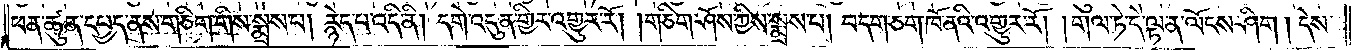ཕན་ཚུན་དཔྱད་ནས་གཅིག་གིས་སྨྲས་པ། རྙེད་པ་འདི་ནི། དགེ་འདུན་གྱིར་འགྱུར་རོ། །གཅིག་ཤོས་ཀྱིས་སྨྲས་པ། བདག་ཅག་ཁོ་ནའི་འགྱུར་རོ། །གལ་ཏེ་དེ་ལྟ་ན་ལོངས་ཤིག །དེས་
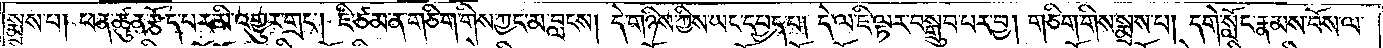སྨྲས་པ། ཕན་ཚུན་རྩོད་པར་མི་འགྱུར་གྲང༌། ཇི་ཙམ་ན་གཅིག་གིས་ཀྱང་མ་བླངས། དེ་གཉིས་ཀྱིས་ཡང་དཔྱད་པ། དེ་ལ་ཇི་ལྟར་བསྒྲུབ་པར་བྱ། གཅིག་གིས་སྨྲས་པ། དགེ་སློང་རྣམས་བོས་ལ་
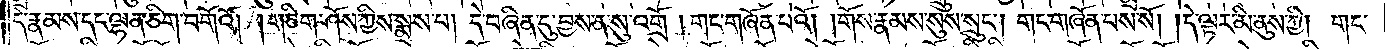དེ་རྣམས་དང་ལྷན་ཅིག་བགོའོ། །གཅིག་ཤོས་ཀྱིས་སྨྲས་པ། དེ་བཞིན་དུ་བྱས་ན་སུ་འགྲོ། གང་གཞོན་པའོ། །གོས་རྣམས་སུས་སྲུང༌། གང་གཞོན་པས་སོ། །དེ་ལྟར་མི་ནུས་ཀྱི། གང་
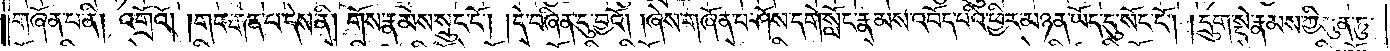གཞོན་པ་ནི། འགྲོའོ། །གང་རྒན་པ་དེས་ནི། གོས་རྣམས་སྲུང་ངོ༌། །དེ་བཞིན་དུ་བྱའོ། །ཞེས་གཞོན་པ་ཤོས་དགེ་སློང་རྣམས་འབོད་པའི་ཕྱིར་མཉན་ཡོད་དུ་སོང་ངོ༌། །དྲུག་སྡེ་རྣམས་ཀྱི་ཀུན་ཏུ་
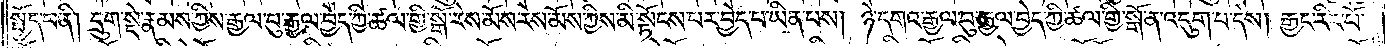སྤྱོད་པ་ནི། དྲུག་སྡེ་རྣམས་ཀྱིས་རྒྱལ་བུ་རྒྱལ་བྱེད་ཀྱི་ཚལ་གྱི་སྒོ་རེས་མོས་རེས་མོས་ཀྱིས་མི་སྟོངས་པར་བྱེད་པ་ཡིན་པས། ཉེ་དགའ་རྒྱལ་བུ་རྒྱལ་བྱེད་ཀྱི་ཚལ་གྱི་སྒོ་ན་འདུག་པ་དེས། རྒྱང་རིང་པོ་
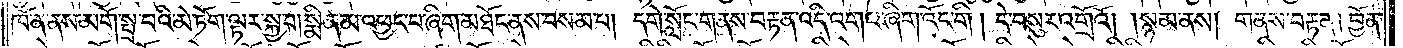ཁོ་ན་ནས་མགོ་སྤྲ་བའི་མེ་ཏོག་ལྟར་སྐྱ་བ། སྨིན་མ་འཕྱང་བ་ཞིག་མཐོང་ནས་བསམ་པ། དགེ་སློང་གནས་བརྟན་འདི་འགའ་ཞིག་འོང་གི །དེ་བསུར་འགྲོའོ། །སྙམ་ནས། གནས་བརྟན། བྱོན་
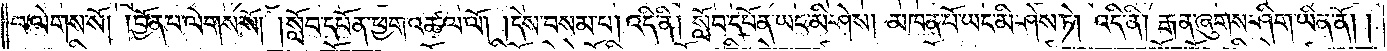པ་ལེགས་སོ། །བྱོན་པ་ལེགས་སོ། །སློབ་དཔོན་ཕྱག་འཚལ་ལོ། །དེས་བསམ་པ། འདི་ནི། སློབ་དཔོན་ཡང་མི་ཤེས། མཁན་པོ་ཡང་མི་ཤེས་ཏེ། འདི་ནི། རྒན་ཞུགས་ཤིག་ཡིན་ནོ། །
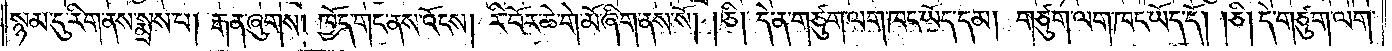སྙམ་དུ་རིག་ནས་སྨྲས་པ། རྒན་ཞུགས། ཁྱོད་གང་ནས་འོངས། རི་བོར་ཆེ་གེ་མོ་ཞིག་ནས་སོ། །ཅི། དེ་ན་གཙུག་ལག་ཁང་ཡོད་དམ། གཙུག་ལག་ཁང་ཡོད་དོ། །ཅི། དེ་གཙུག་ལག་
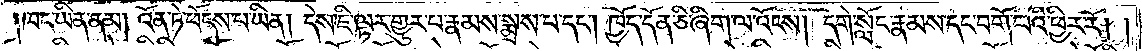།གང་ཡིན་ནམ། འོན་ཏེ་ཕོངས་པ་ཡིན། དེས་ཇི་ལྟར་གྱུར་པ་རྣམས་སྨྲས་པ་དང༌། ཁྱོད་དོན་ཅི་ཞིག་ལ་འོངས། དགེ་སློང་རྣམས་དང་བགོ་བའི་ཕྱིར་རོ། །
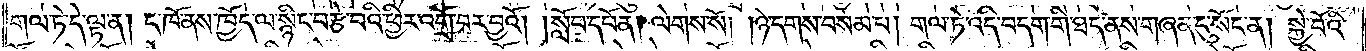གལ་ཏེ་དེ་ལྟ་ན། ང་ཁོ་ནས་ཁྱོད་ལ་སྙིང་བརྩེ་བའི་ཕྱིར་འགྲོ་བར་བྱའོ། །སློབ་དཔོན། ལེགས་སོ། །ཉེ་དགས་བསམ་པ། གལ་ཏེ་འདི་བདག་གི་ཐད་ནས་གཞན་དུ་སོང་ན། སྐྱེ་བོའི་
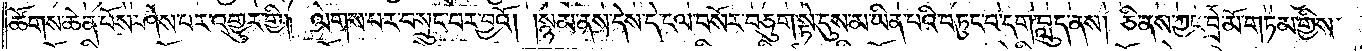ཚོགས་ཆེན་པོས་ཤེས་པར་འགྱུར་གྱི། ལེགས་པར་བསྲུང་བར་བྱའོ། །སྙམ་ནས་དེས་དེ་ངལ་བསོར་བཅུག་སྟེ་དུས་མ་ཡིན་པའི་བཏུང་བ་དག་བླུད་ནས། ཅི་ནས་ཀྱང་བྲེ་མོ་གཏམ་གྱིས་
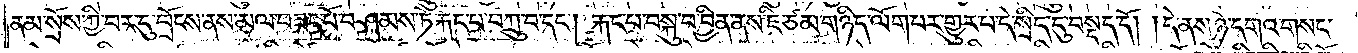ནམ་སྲོས་ཀྱི་བར་དུ་བྲོངས་ནས་མལ་བཟང་པོ་བཤམས་ཏེ་རྐང་པ་བཀྲུ་བ་དང༌། རྐང་པ་བསྐུ་བ་བྱིན་ནས་ཇི་ཙམ་གཉིད་ལོག་པར་གྱུར་པ་དེ་སྲིད་དུ་བསྡད་དོ། །དེ་ནས་ཉེ་དགའ་གསང་
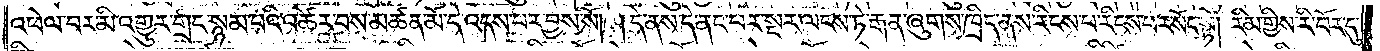འཕེལ་བར་མི་འགྱུར་གྲང་སྙམ་པའི་འཚེར་བས་མཚན་མོ་དེ་འདས་བར་བྱས་སོ། །དེ་ནས་དེ་ནང་པར་སྔར་ལངས་ཏེ་རྒན་ཞུགས་ཁྲིད་ནས་རིངས་པ་རིངས་པར་སོང་སྟེ། རིམ་གྱིས་རི་བོར་དུ་
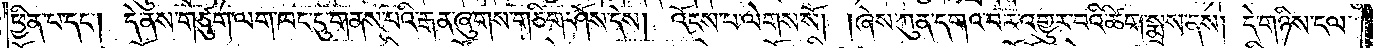ཕྱིན་པ་དང༌། དེ་ནས་གཙུག་ལག་ཁང་དུ་གནས་པའི་རྒན་ཞུགས་གཅིག་ཤོས་དེས། འོངས་པ་ལེགས་སོ། །ཞེས་ཀུན་དགའ་བར་འགྱུར་པའི་ཚིག་སྨྲས་ནས། དེ་གཉིས་ངལ་
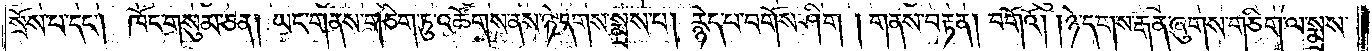སྲོས་པ་དང༌། ཁོང་གསུམ་ཅན། ཡང་གནས་གཅིག་ཏུ་འཚོགས་ནས་ཉེ་དགས་སྨྲས་པ། རྙེད་པ་བགོས་ཤིག །གནས་བརྟན། བགོའོ། །ཉེ་དགས་རྒན་ཞུགས་གཅིག་ལ་སྨྲས་
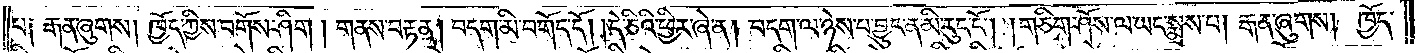པ། རྒན་ཞུགས། ཁྱོད་ཀྱིས་བགོས་ཤིག །གནས་བརྟན། བདག་མི་བགོད་དོ། །དེ་ཅིའི་ཕྱིར་ཞེ་ན། བདག་ལ་ཉེས་པ་བྱུང་ན་མི་རུང་ངོ༌། །གཅིག་ཤོས་ལ་ཡང་སྨྲས་པ། རྒན་ཞུགས། ཁྱོད་
